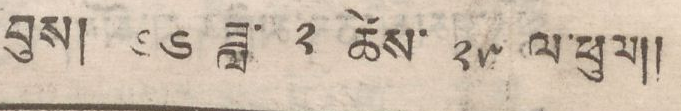བུས། ༦༦ ཟླ་ ༢ ཚེས་ ༢༥ ལ་ཕུལ།།
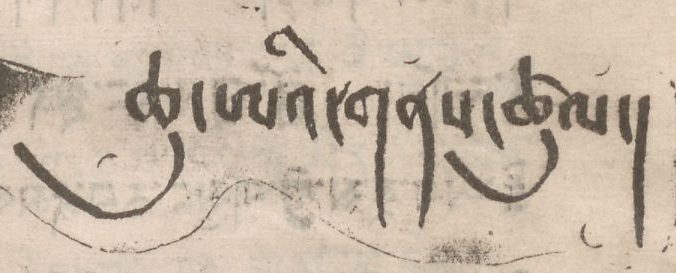ཆུ་ཨའི་གནས་ཚུལ།
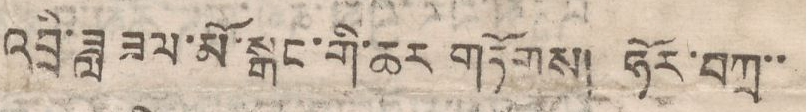འབྲི་ཟླ ཟལ་མོ་སྒང་གི་ཆར གཏོགས། ཧོར་བཀྲ་་
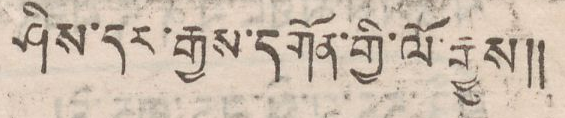ཤིས་དར་རྒྱས་དགོན་གྱི་ལོ་རྒྱུས།།
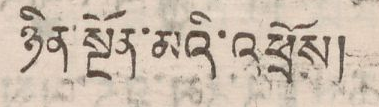ཉིན་སྔོན་མའི་འཕྲོས།
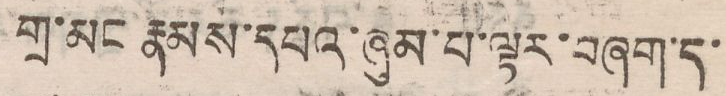གྲ་མང རྣམས་དཔའ་ཞུམ་པ་ལྟར་བཞག་ད་
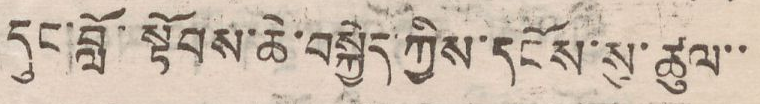དུང་བློ་སྟོབས་ཆེ་བསྐྱེད་ཀྱིས་དངོས་ཚུལ་་
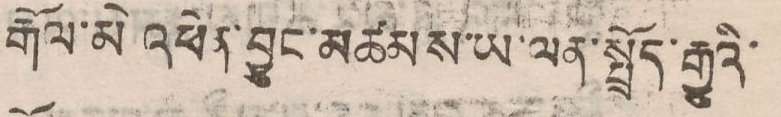རྒོལ་མེ འཕེན་བྱུང་མཚམས་ཡ་ལན་སྤྲོད་རྒྱུའི་
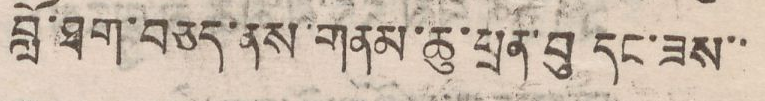བློ་ཐག་བཅད་ནས་གནམ་ཆུ་ཕྲན་བུ་དང་ཟས་་
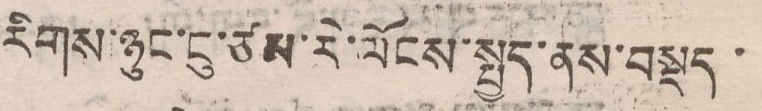རིགས་ཉུང་ངུ་ཙམ་རེ་ལོངས་སྤྱད་ནས་བསྡད་
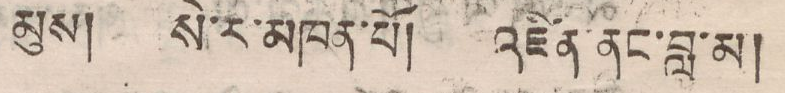མུས། སེ་ར་མཁན་པོ། འཛིན་ནང་བླ་མ།
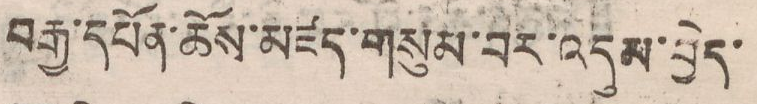བརྒྱ་དཔོན་ཆོས་མཛད་གསུམ་བར་འདུམ་བྱེད་
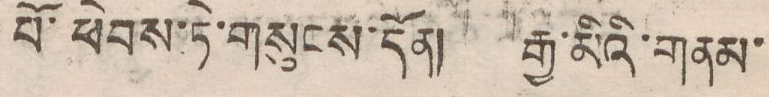པོ་ཕེབས་ཏེ་གསུངས་དོན། རྒྱ་མའི་གནམ་
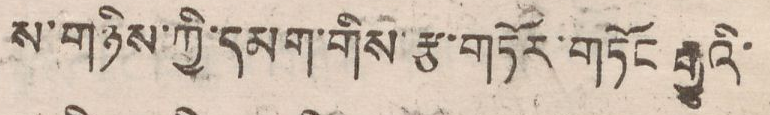ས་གཉིས་ཀྱི་དམག་གིས་རྩ་གཏོར་གཏོང རྒྱུའི་
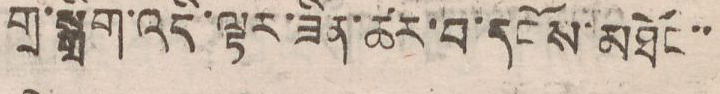གྲ་སྒྲིག་འདི་ལྟར་ཟིན་ཚར་བ་དངོས་མཐོང་་
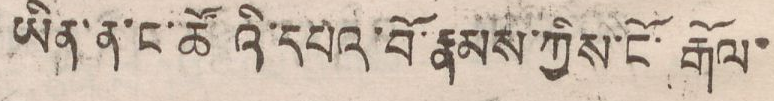ཡིན་ན་ང་ཚོའི་དཔའ་བོ་རྣམས་ཀྱིས་ངོ་རྒོལ་
